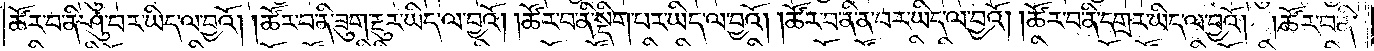ཚོར་བ་ནི་ཤུ་བར་ཡིད་ལ་བྱའོ། །ཚོར་བ་ནི་ཟུག་རྔུར་ཡིད་ལ་བྱའོ། །ཚོར་བ་ནི་སྡིག་པར་ཡིད་ལ་བྱའོ། །ཚོར་བ་ནི་ན་བར་ཡིད་ལ་བྱའོ། །ཚོར་བ་ནི་དགྲར་ཡིད་ལ་བྱའོ། །ཚོར་བ་ནི་
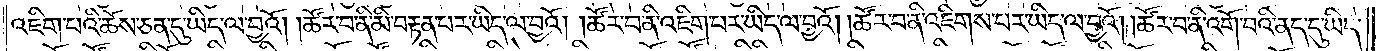འཇིག་པའི་ཆོས་ཅན་དུ་ཡིད་ལ་བྱའོ། །ཚོར་བ་ནི་མི་བརྟན་པར་ཡིད་ལ་བྱའོ། །ཚོར་བ་ནི་འཇིག་པར་ཡིད་ལ་བྱའོ། །ཚོར་བ་ནི་འཇིགས་པར་ཡིད་ལ་བྱའོ། །ཚོར་བ་ནི་འགོ་བའི་ནད་དུ་ཡིད་
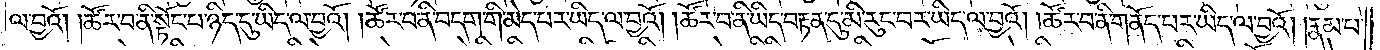ལ་བྱའོ། །ཚོར་བ་ནི་སྟོང་པ་ཉིད་དུ་ཡིད་ལ་བྱའོ། །ཚོར་བ་ནི་བདག་གི་མེད་པར་ཡིད་ལ་བྱའོ། །ཚོར་བ་ནི་ཡིད་བརྟན་དུ་མི་རུང་བར་ཡིད་ལ་བྱའོ། །ཚོར་བ་ནི་གནོད་པར་ཡིད་ལ་བྱའོ། །རྣམ་པ་
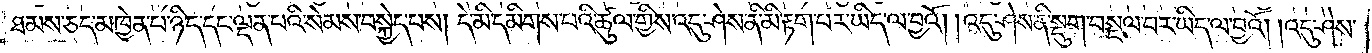ཐམས་ཅད་མཁྱེན་པ་ཉིད་དང་ལྡན་པའི་སེམས་བསྐྱེད་པས། དེ་མི་དམིགས་པའི་ཚུལ་གྱིས་འདུ་ཤེས་ནི་མི་རྟག་པར་ཡིད་ལ་བྱའོ། །འདུ་ཤེས་ནི་སྡུག་བསྔལ་བར་ཡིད་ལ་བྱའོ། །འདུ་ཤེས་
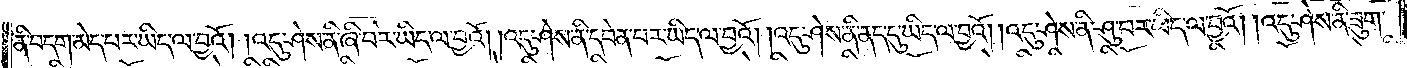ནི་བདག་མེད་པར་ཡིད་ལ་བྱའོ། །འདུ་ཤེས་ནི་ཞི་བར་ཡིད་ལ་བྱའོ། །འདུ་ཤེས་ནི་དབེན་པར་ཡིད་ལ་བྱའོ། །འདུ་ཤེས་ནི་ནད་དུ་ཡིད་ལ་བྱའོ། །འདུ་ཤེས་ནི་ཤུ་བར་ཡིད་ལ་བྱའོ། །འདུ་ཤེས་ནི་ཟུག་
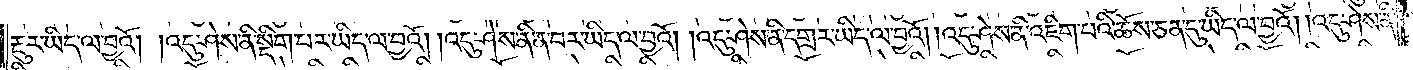རྔུར་ཡིད་ལ་བྱའོ། །འདུ་ཤེས་ནི་སྡིག་པར་ཡིད་ལ་བྱའོ། །འདུ་ཤེས་ནི་ན་བར་ཡིད་ལ་བྱའོ། །འདུ་ཤེས་ནི་དགྲར་ཡིད་ལ་བྱའོ། །འདུ་ཤེས་ནི་འཇིག་པའི་ཆོས་ཅན་དུ་ཡིད་ལ་བྱའོ། །འདུ་ཤེས་ནི་
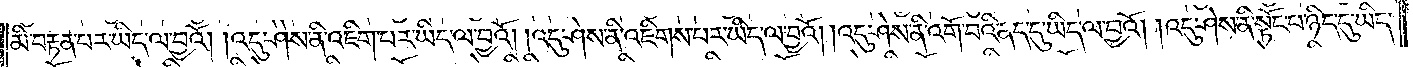མི་བརྟན་པར་ཡིད་ལ་བྱའོ། །འདུ་ཤེས་ནི་འཇིག་པར་ཡིད་ལ་བྱའོ། །འདུ་ཤེས་ནི་འཇིགས་པར་ཡིད་ལ་བྱའོ། །འདུ་ཤེས་ནི་འགོ་བའི་ནད་དུ་ཡིད་ལ་བྱའོ། །འདུ་ཤེས་ནི་སྟོང་པ་ཉིད་དུ་ཡིད་
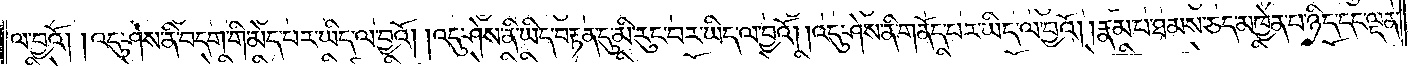ལ་བྱའོ། །འདུ་ཤེས་ནི་བདག་གི་མེད་པར་ཡིད་ལ་བྱའོ། །འདུ་ཤེས་ནི་ཡིད་བརྟན་དུ་མི་རུང་བར་ཡིད་ལ་བྱའོ། །འདུ་ཤེས་ནི་གནོད་པར་ཡིད་ལ་བྱའོ། །རྣམ་པ་ཐམས་ཅད་མཁྱེན་པ་ཉིད་དང་ལྡན་
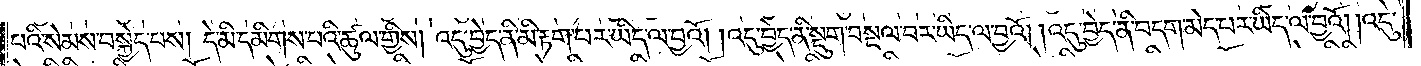པའི་སེམས་བསྐྱེད་པས། དེ་མི་དམིགས་པའི་ཚུལ་གྱིས། འདུ་བྱེད་ནི་མི་རྟག་པར་ཡིད་ལ་བྱའོ། །འདུ་བྱེད་ནི་སྡུག་བསྔལ་བར་ཡིད་ལ་བྱའོ། །འདུ་བྱེད་ནི་བདག་མེད་པར་ཡིད་ལ་བྱའོ། །འདུ་
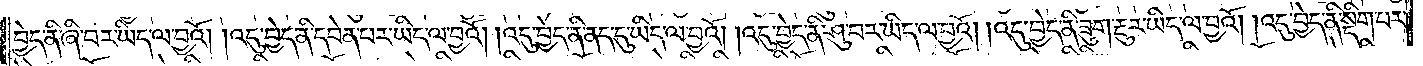བྱེད་ནི་ཞི་བར་ཡིད་ལ་བྱའོ། །འདུ་བྱེད་ནི་དབེན་པར་ཡིད་ལ་བྱའོ། །འདུ་བྱེད་ནི་ནད་དུ་ཡིད་ལ་བྱའོ། །འདུ་བྱེད་ནི་ཤུ་བར་ཡིད་ལ་བྱའོ། །འདུ་བྱེད་ནི་ཟུག་རྔུར་ཡིད་ལ་བྱའོ། །འདུ་བྱེད་ནི་སྡིག་པར་
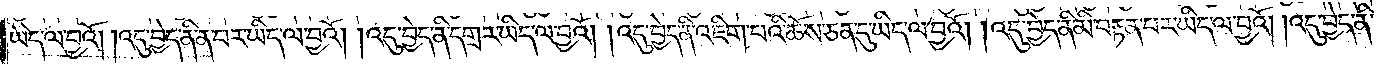ཡིད་ལ་བྱའོ། །འདུ་བྱེད་ནི་ན་བར་ཡིད་ལ་བྱའོ། །འདུ་བྱེད་ནི་དགྲར་ཡིད་ལ་བྱའོ། །འདུ་བྱེད་ནི་འཇིག་པའི་ཆོས་ཅན་དུ་ཡིད་ལ་བྱའོ། །འདུ་བྱེད་ན་མི་བརྟན་པར་ཡིད་ལ་བྱའོ། །འདུ་བྱེད་ནི་
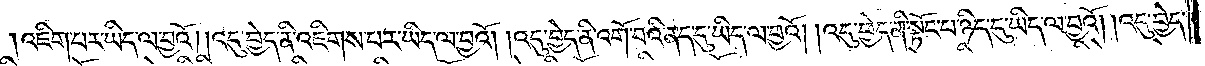འཇིག་པར་ཡིད་ལ་བྱའོ། །འདུ་བྱེད་ནི་འཇིགས་པར་ཡིད་ལ་བྱའོ། །འདུ་བྱེད་ནི་འགོ་བའི་ནད་དུ་ཡིད་ལ་བྱའོ། །འདུ་བྱེད་ནི་སྟོང་པ་ཉིད་དུ་ཡིད་ལ་བྱའོ། །འདུ་བྱེད་
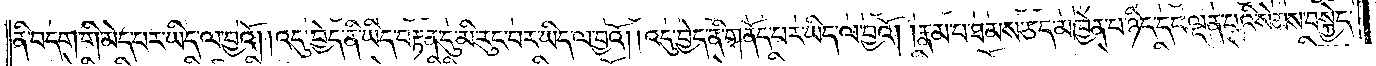ནི་བདག་གི་མེད་པར་ཡིད་ལ་བྱའོ། །འདུ་བྱེད་ནི་ཡིད་བརྟན་དུ་མི་རུང་བར་ཡིད་ལ་བྱའོ། །འདུ་བྱེད་ནི་གནོད་པར་ཡིད་ལ་བྱའོ། །རྣམ་པ་ཐམས་ཅད་མཁྱེན་པ་ཉིད་དང་ལྡན་པའི་སེམས་བསྐྱེད་
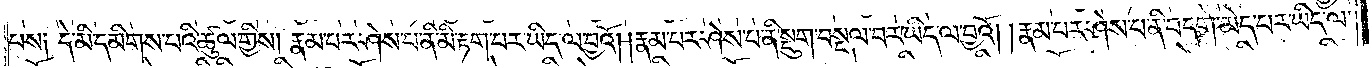པས༏ དེ་མི་དམིགས་པའི་ཚུལ་གྱིས། རྣམ་པར་ཤེས་པ་ནི་མི་རྟག་པར་ཡིད་ལ་བྱའོ། །རྣམ་པར་ཤེས་པ་ནི་སྡུག་བསྔལ་བར་ཡིད་ལ་བྱའོ། །རྣམ་པར་ཤེས་པ་ནི་བདག་མེད་པར་ཡིད་
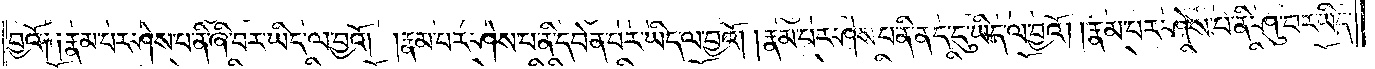བྱའོ༏ ༏རྣམ་པར་ཤེས་པ་ནི་ཞི་བར་ཡིད་ལ་བྱའོ། །རྣམ་པར་ཤེས་པ་ནི་དབེན་པར་ཡིད་ལ་བྱའོ། །རྣམ་པར་ཤེས་པ་ནི་ནད་དུ་ཡིད་ལ་བྱའོ། །རྣམ་པར་ཤེས་པ་ནི་ཤུ་བར་ཡིད་
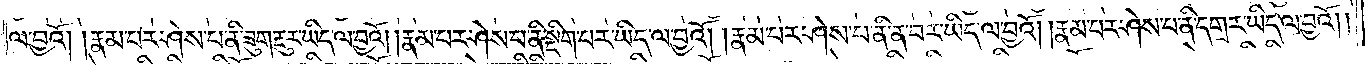ལ་བྱའོ། །རྣམ་པར་ཤེས་པ་ནི་ཟུག་རྔུར་ཡིད་ལ་བྱའོ། །རྣམ་པར་ཤེས་པ་ནི་སྡིག་པར་ཡིད་ལ་བྱའོ། །རྣམ་པར་ཤེས་པ་ནི་ན་བར་ཡིད་ལ་བྱའོ། །རྣམ་པར་ཤེས་པ་ནི་དགྲར་ཡིད་ལ་བྱའོ། །
